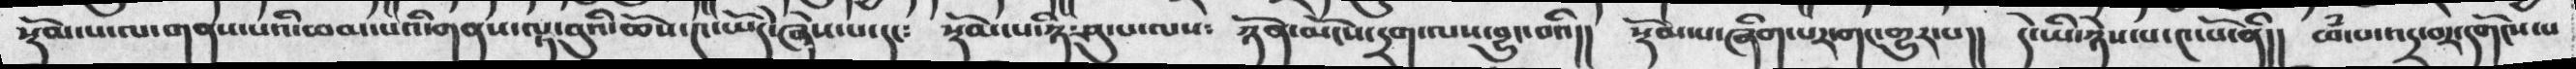སྡོམ་པ་ལ་གནས་པའི་ཕམ་པའི་གནས་ལྟ་བུའི་ཆོས་༤་ཡོདེ་ཞེས་པ་དང༴  སྡོམ་པ་ཉི་ཤུ་པ་ལས༴ ཉོན་མོངས་དྲག་ལས་བྱུང་བའི།། སྡོམ་པ་ཞིག་པར་གང་གྱུར་པ།། དེ་ཡི་ཉེས་པ་༤་པོ་ནི།། ཕཾ་པ་འདྲ་བར་དགོངས་པ
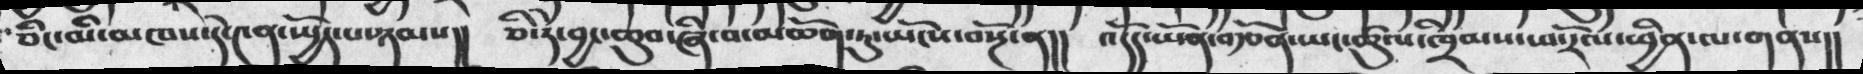ཅིང་མི་མཁས་དེ་༤ན་སྤྱོད་པ་ཉམས།། ཅི་ཏེ་བྱང་ཆུབ་ཞི་བ་མཆོག་ཏུ་ཡོངས་བསྔོ་ན།། འདོད་ཡོན་བརྩོན་ཡང་ཚུལ་ཁྲིམས་ཕ་རོལ་ཕྱིན་ལ་གནས།།
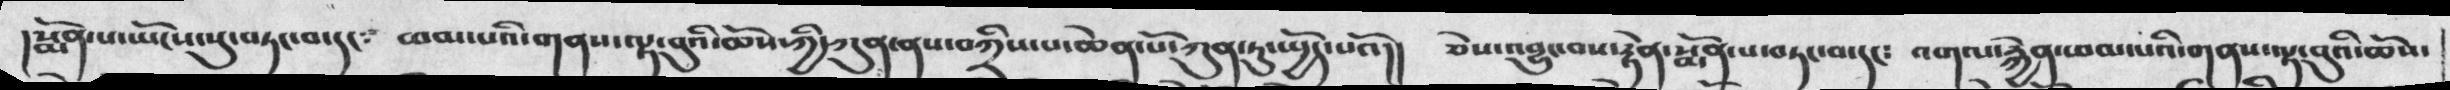།སྨོན་པ་ཡོངས་སུ་བཏང་བ་དང༴  ཕམ་པའི་གནས་ལྟ་བུའི་ཆོས་ཀྱི་ཀུན་ནས་བཀྲིས་པ་ཆེན་པོ་ཀུན་ཏུ་སྤྱོད་པའོ།།  ཅེས་འབྱུང་བས་རྟེན་སྨོན་པ་བཏང་བ་དང༴  འགལ་རྐྱེན་ཕམ་པའི་གནས་ལྟ་བུའི་ཆོས་
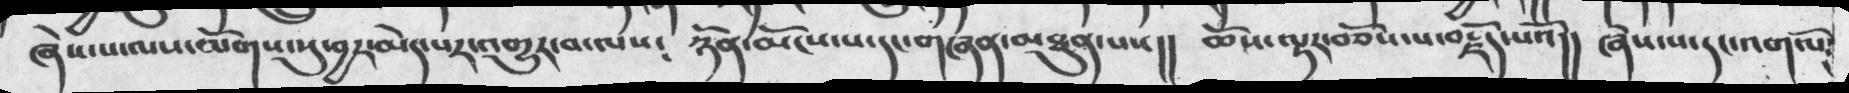ཞེས་པ་ལས་ལོགས་སུ་བྱར་མེད་པར་འགྱུར་བ་ལས༴  ཉོན་མོངས་པ་དང་གཞན་མཐུན་པས།།  ཆོས་ལྟར་བཅོས་པ་བརྗོད་པའོ།།  ཞེས་པ་དང་འགལོ༴
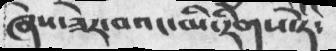ཞེས་ཟེར་བའང་མི་རིགས་ཏེ༴
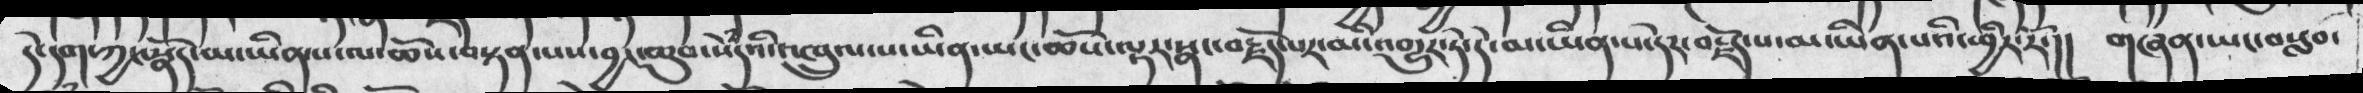དེ་དག་ཀྱང་སྣོད་མ་ཡིན་པ་ལ་ཆོས་བསྟན་པས་བྱང་ཆུབ་སེཾདའི་འཁྲུལ་པ་ཡིན་ཡང་ཆོས་ལྟར་སྣང་བརྗོད་པར་མི་འགྱུར་ཏེ་དེ་མ་ཡིན་པ་དེར་བརྗོད་པ་མ་ཡིན་པའི་ཕྱིར་རོ་།།  གཞན་ཡང་བསླབ་
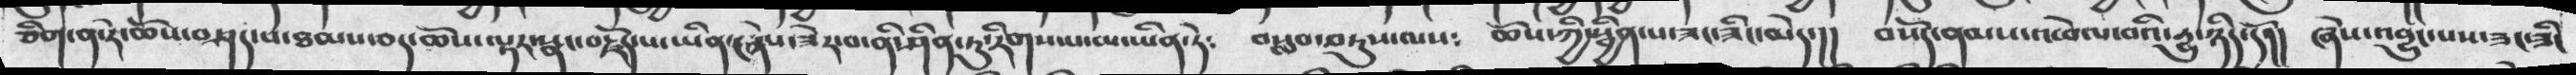ཅིག་ན་རེ་ཆོས་བཤད་པ་ཐམས་ཅད་ཆོས་ལྟར་སྣང་བརྗོད་པ་ཡིན་ཞེས་ཟེར་བ་ནི་ཤིན་ཏུ་རིགས་པ་མ་ཡིན་ཏེ༴ བསླབ་བཏུས་ལས༴ ཆོས་ཀྱི་སྦྱིན་པ་ཟང་ཟིང་མེད་།། བསོད་ནམས་འཕེལ་བའི་རྱུ་ཉིད་དོ།། ཞེས་འབྱུང་པས་ཟང་ཟིང
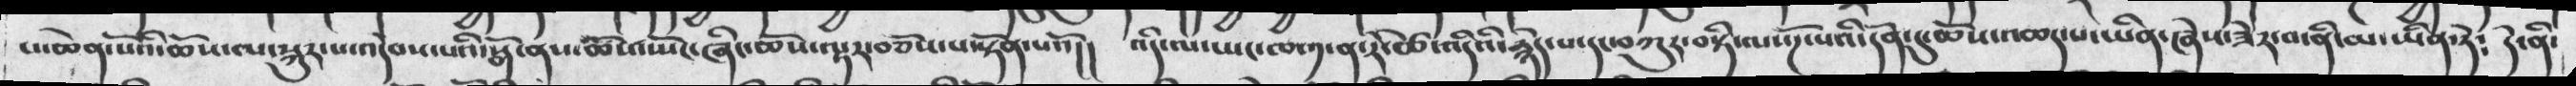པ་ཆེན་པོའི་ཆོས་ལ་སྐུར་པ་འདེབས་པའི་སྒོ་ནས་ཆོས་སྤོང་ཞིང་ཆོས་ལྟར་བཅོས་པ་སྟོན་པའོ།། འདི་ལ་ཡང་ཁ་༡་ན་རེ་ཚེ་འདིའི་རྙེད་པ་དང་བཀུར་བསྟི་ལསོཌ་པའི་དོན་དུ་ཆོས་འཆད་པ་ཡིན་ཞེས་ཟེར་བ་ནི་མ་ཡིན་ཏེ༴ དེ་ནི་
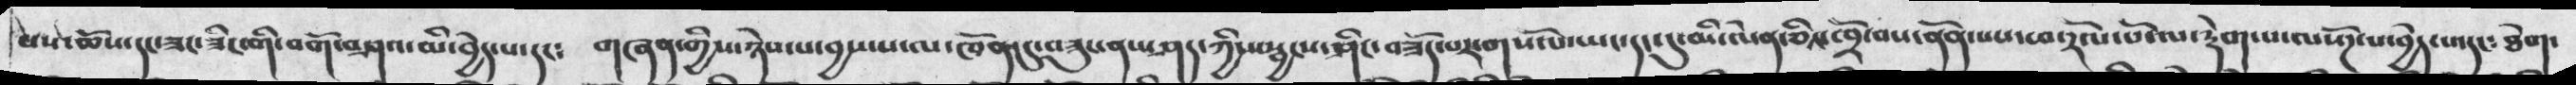པས་ཆོས་དང་ཟང་ཟིང་གི་བགོ་བཤའ་མི་བྱེད་པ་དང༴ གཞན་གྱིས་ཉེས་པ་བྱས་པ་ལ་ཁོན་དུ་བཟུང་བས་ཤད་ཀྱིས་སྦྱངས་ཤིང་བཟོད་པར་གསོལ་ཡང་དང་དུ་མི་ལེན་ཅིང་བྲོ་བས་ནོན་པས་ཕ་རོལ་པོ་ལ་རྡེག་པ་ལསོཌ་པ་བྱེད་པ་དང༴ ཐེག་
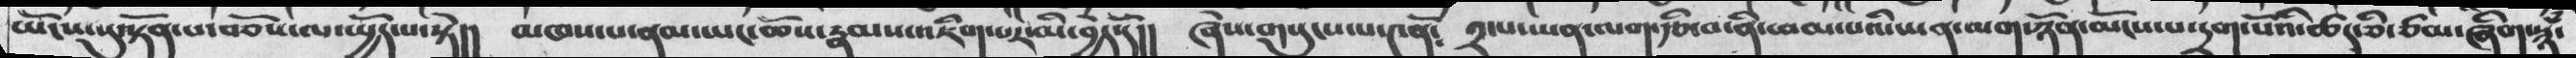ཡོངས་སུ་སྟོན་པ་བཅོས་ལ་སྤྱོད་པ་སྟེ།།   མཁས་པ་ནམ་ཡང་ཆོས་རྣམས་འཇིག་པར་མི་བྱེད་དོ།། ཞེས་གསུངས་པ་༤ནོ༴ ༢་པ་ཡན་ལག་རྩི་བ་ནི་ཕམ་པའི་ཡན་ལག་ཉོན་མོངས་པ་དྲག་པོའི་ཚད་ཅི་ཙམ་ཞིག་སྙཾ་
